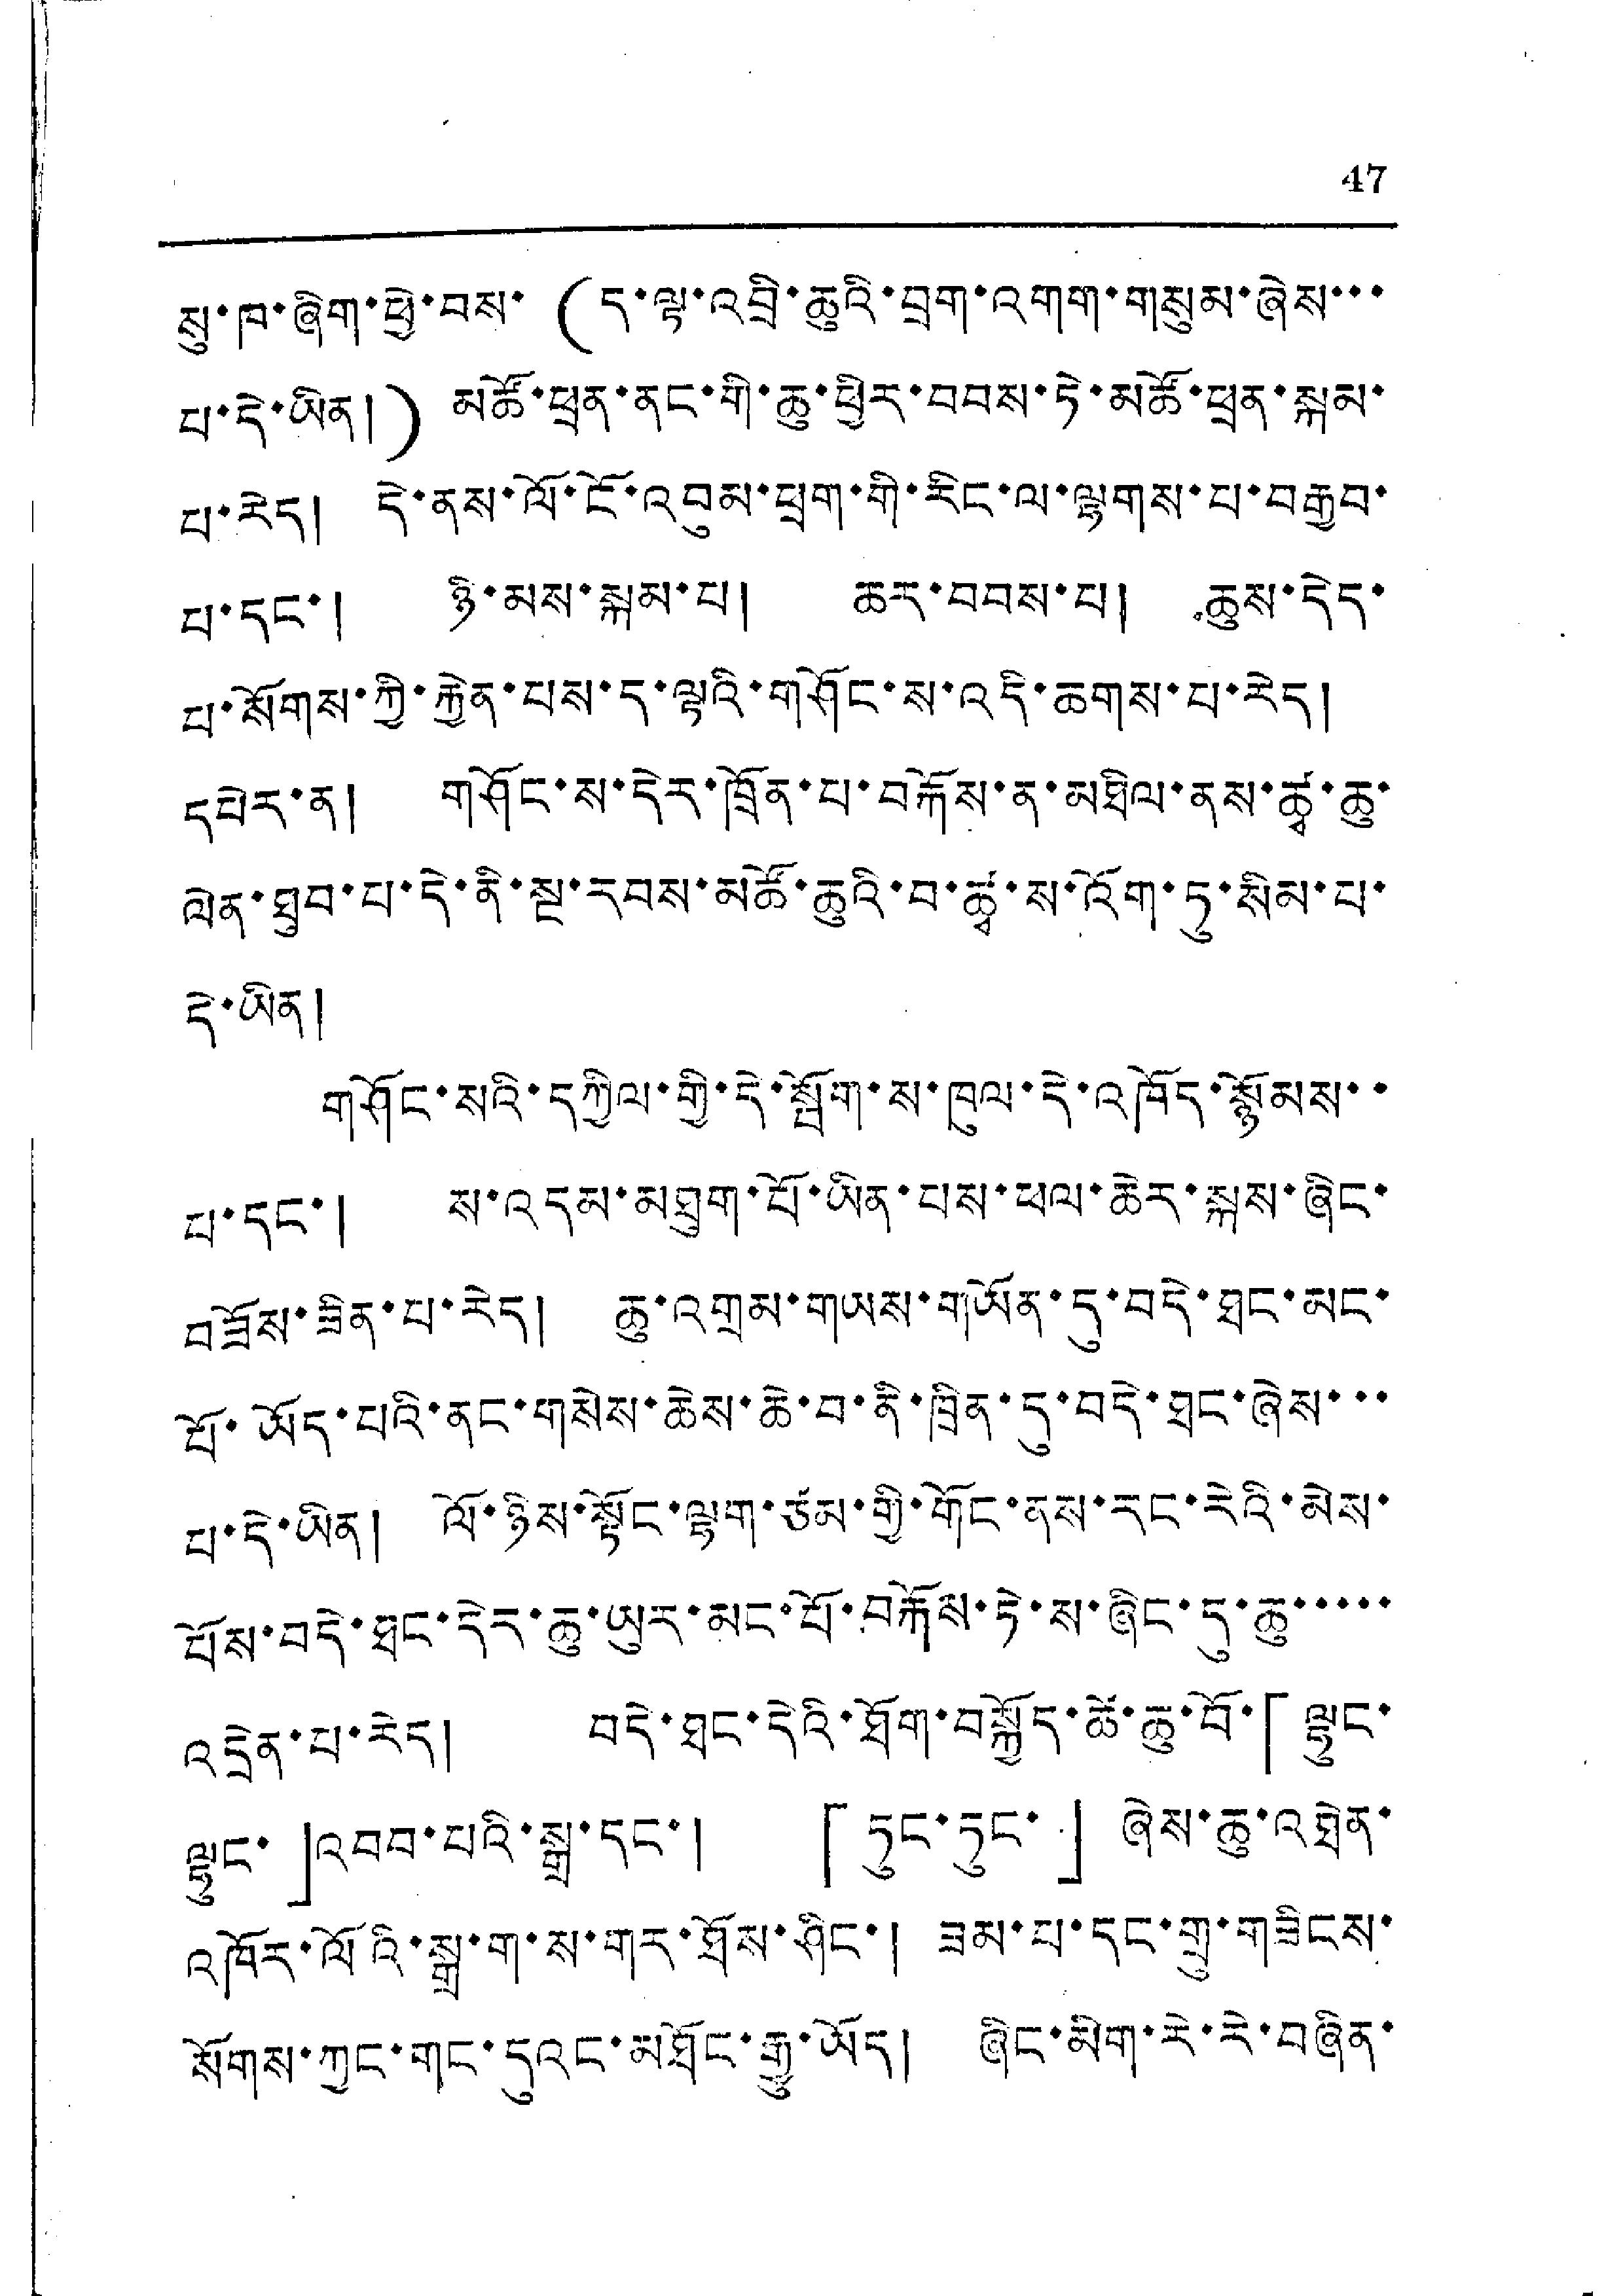47
སུ་ཁ་ཞིག་ཕྱེ་བས་ (ད་ལྟ་འབྲི་ཆུའི་བྲག་འགག་གསུམ་ཞེས་་་
པ་དེ་ཡིན།) མཚོ་ཕྲན་ནང་གི་ཆུ་ཕྱིར་བབས་ཏེ་མཚོ་ཕྲན་སྐམ་
པ་རེད། དེ་ནས་ལོ་ངོ་འབུམ་ཕྲག་གི་རིང་ལ་ལྷགས་པ་བརྒྱབ་
པ་དང་། ཉི་མས་སྐམ་པ། ཆར་བབས་པ། ཆུས་དེད་
པ་སོགས་ཀྱི་རྐྱེན་པས་ད་ལྟའི་གཤོང་ས་འདི་ཆགས་པ་རེད།
དཔེར་ན། གཤོང་ས་དེར་ཁྲོན་པ་བརྐོས་ན་མཐིལ་ནས་ཚྭ་ཆུ་
ལེན་ཐུབ་པ་དེ་ནི་སྔ་རབས་མཚོ་ཆུའི་བ་ཚྭ་ས་འོག་ཏུ་སིམ་པ་
དེ་ཡིན།
གཤོང་སའི་དཀྱིལ་གྱི་དེ་སྦོག་ས་ཁུལ་དེ་འཁོད་སྙོམས་་
པ་དང་། ས་འདམ་མཐུག་པོ་ཡིན་པས་ཕལ་ཆེར་སྐས་ཞིང་
བཟོས་ཟིན་པ་རེད། ཆུ་འགྲམ་གཡས་གཡོན་དུ་བདེ་ཐང་མང་
པོ་ཡོད་པའི་ནང་གསེས་ཆེས་ཆེ་བ་ནི་ཁྲིན་དུ་བདེ་ཐུང་ཞེས་་་
པ་དེ་ཡིན། ལོ་ཉིས་སྟོང་ལྷག་ཙམ་གྱི་གོང་ནས་རང་རེའི་མེས་
པོས་བདེ་ཐང་དེད་ཆུ་ཡུར་མང་པོ་བརྐོས་ཏེ་ས་ཞིང་དུ་ཆུ་་་་་
འདྲེན་པ་རེད། བདེ་ཐང་དེའི་ཐོག་བསྐྱོད་ཚེ་ཆུ་བོ་「ལྷུང་
ལྷུང་」འབབ་པའི་སྒྲ་དང་། 「ཏུང་ཏུང་」ཞེས་ཆུ་འཐེན་
འཁོར་ལོའི་སྒྲ་ག་ས་གར་ཐོས་ཤིང་། ཟམ་པ་དང་གྲུ་གཟིངས་
སོགས་ཀྱང་གང་དུའང་མཐོང་རྒྱུ་ཡོད། ཞིང་མིག་རེ་རེ་བཞིན་
